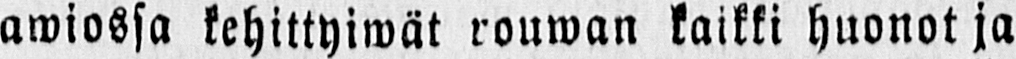awiossa kehittyiwät rouwan kaikki huonot ja
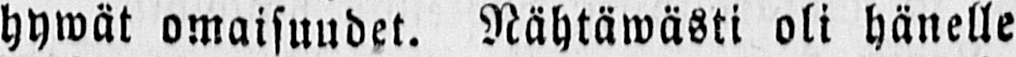hywät omaisuudet. Nähtäwästi oli hänelle
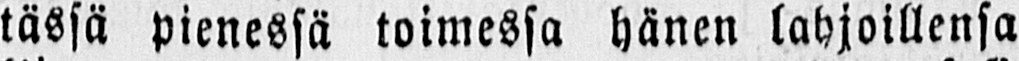tässä pienessä toimessa hänen lahjoillensa
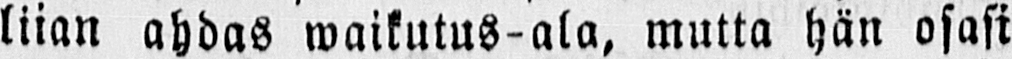liian ahdas waikutus-ala, mutta hän osasi
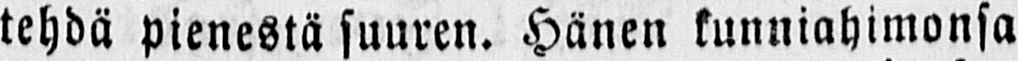tehdä pienestä suuren. Hänen kunniahimonsa
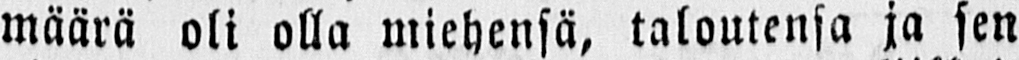määrä oli olla miehensä, taloutensa ja sen
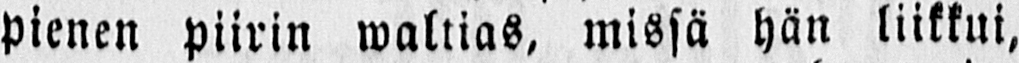pienen piirin waltias, missä hän liikkui,
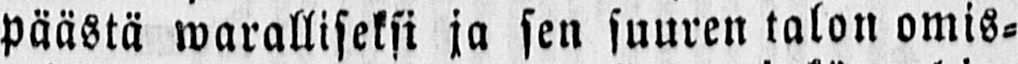päästä waralliseksi ja sen suuren talon omis-
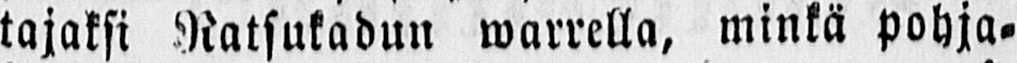tajaksi Ratsukadun warrella, minkä pohja-
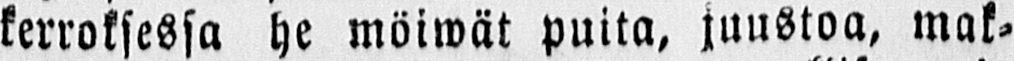kerroksessa he möiwät puita, juustoa, mak-
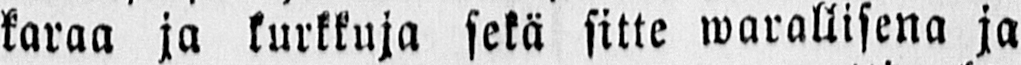karaa ja kurkkuja sekä sitte warallisena ja
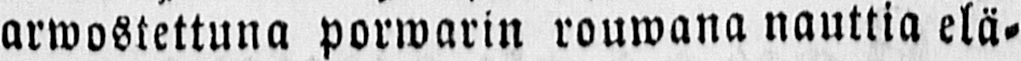arwostettuna porwarin rouwana nauttia elä-
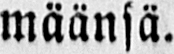määnsä.
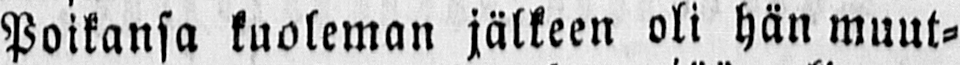Poikansa kuoleman jälkeen oli hän muut-
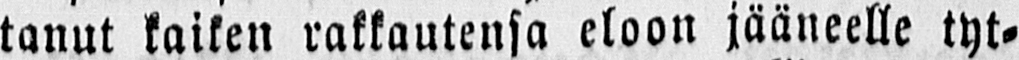tanut kaiken rakkautensa eloon jääneelle tyt-
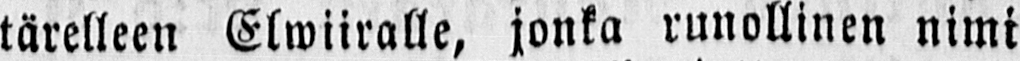tärelleen Elwiiralle, jonka runollinen nimi
